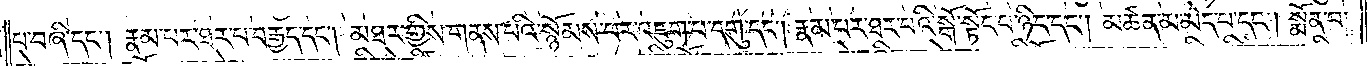པ་བཞི་དང༌། རྣམ་པར་ཐར་པ་བརྒྱད་དང༌། མཐར་གྱིས་གནས་པའི་སྙོམས་པར་འཇུག་པ་དགུ་དང༌། རྣམ་པར་ཐར་པའི་སྒོ་སྟོང་པ་ཉིད་དང༌། མཚན་མ་མེད་པ་དང༌། སྨོན་པ་
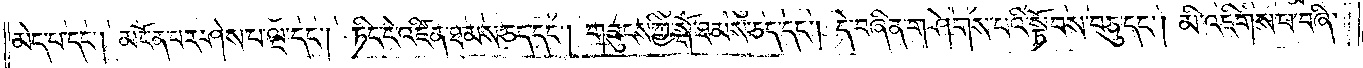མེད་པ་དང༌། མངོན་པར་ཤེས་པ་ལྔ་དང༌། ཏིང་ངེ་འཛིན་ཐམས་ཅད་དང༌། གཟུངས་ཀྱི་སྒོ་ཐམས་ཅད་དང༌། དེ་བཞིན་གཤེགས་པའི་སྟོབས་བཅུ་དང༌། མི་འཇིགས་པ་བཞི་
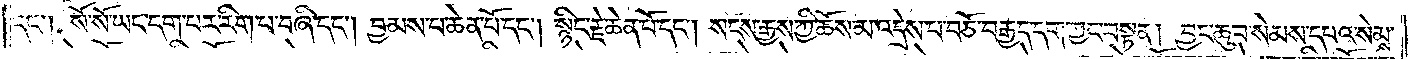དང༌། སོ་སོ་ཡང་དག་པར་རིག་པ་བཞི་དང༌། བྱམས་པ་ཆེན་པོ་དང༌། སྙིང་རྗེ་ཆེན་པོ་དང༌། སངས་རྒྱས་ཀྱི་ཆོས་མ་འདྲེས་པ་བཅོ་བརྒྱད་དག་ཀྱང་བསྟན། བྱང་ཆུབ་སེམས་དཔའ་སེམས་
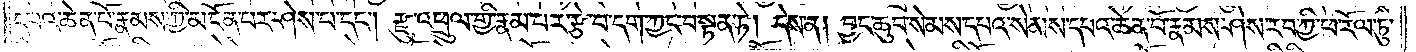དཔའ་ཆེན་པོ་རྣམས་ཀྱི་མངོན་པར་ཤེས་པ་དང༌། རྫུ་འཕྲུལ་གྱི་རྣམ་པར་རྩེ་བ་དག་ཀྱང་བསྟན་ཏེ། དེས་ན། བྱང་ཆུབ་སེམས་དཔའ་སེམས་དཔའ་ཆེན་པོ་རྣམས་ཤེས་རབ་ཀྱི་ཕ་རོལ་ཏུ་
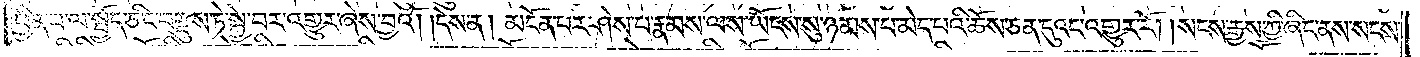ཕྱིན་པ་ལ་སྤྱོད་ཅིང་བརྫུས་ཏེ་སྐྱེ་བར་འགྱུར་ཞེས་བྱའོ། །དེས་ན། མངོན་པར་ཤེས་པ་རྣམས་ལས་ཡོངས་སུ་ཉམས་པ་མེད་པའི་ཆོས་ཅན་དུའང་འགྱུར་རོ། །སངས་རྒྱས་ཀྱི་ཞིང་ནས་སངས་
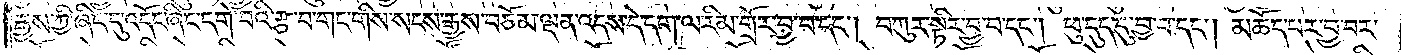རྒྱས་ཀྱི་ཞིང་དུ་འདོད་ཞིང་དགེ་བའི་རྩ་བ་གང་གིས་སངས་རྒྱས་བཅོམ་ལྡན་འདས་དེ་དག་ལ་རིམ་གྲོར་བྱ་བ་དང༌། བཀུར་སྟིར་བྱ་བ་དང༌། ཕུ་དུད་དུ་བྱ་བ་དང༌། མཆོད་པར་བྱ་བར་
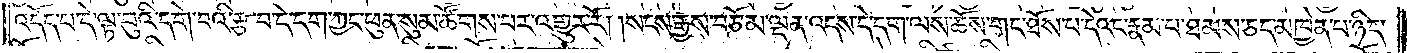འདོད་པ་དེ་ལྟ་བུའི་དགེ་བའི་རྩ་བ་དེ་དག་ཀྱང་ཕུན་སུམ་ཚོགས་པར་འགྱུར་རོ། །སངས་རྒྱས་བཅོམ་ལྡན་འདས་དེ་དག་ལས་ཆོས་གང་ཐོས་པ་དེའང་རྣམ་པ་ཐམས་ཅད་མཁྱེན་པ་ཉིད་
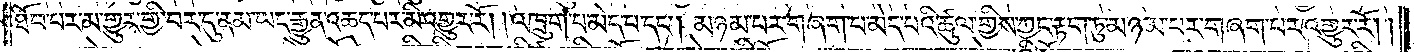ཐོབ་པར་མ་གྱུར་གྱི་བར་དུ་ནམ་ཡང་རྒྱུན་ཆད་པར་མི་འགྱུར་རོ། །འཁྲུག་པ་མེད་པ་དང༌། མཉམ་པར་བཞག་པ་མེད་པའི་ཚུལ་གྱིས་ཀྱང་རྟག་ཏུ་མཉམ་པར་གཞག་པར་འགྱུར་རོ། །
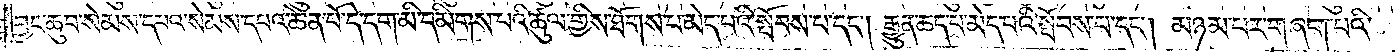བྱང་ཆུབ་སེམས་དཔའ་སེམས་དཔའ་ཆེན་པོ་དེ་དག་མི་དམིགས་པའི་ཚུལ་གྱིས་ཐོགས་པ་མེད་པའི་སྤོབས་པ་དང༌། རྒྱུན་ཆད་པ་མེད་པའི་སྤོབས་པ་དང༌། མཉམ་པར་གཞག་པའི་
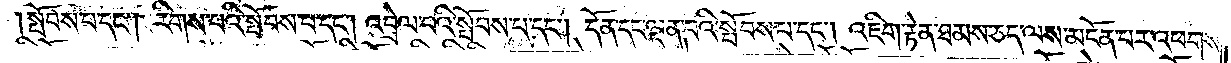སྤོབས་པ་དང༌། རིགས་པའི་སྤོབས་པ་དང༌། འབྲེལ་པའི་སྤོབས་པ་དང༌། དོན་དང་ལྡན་པའི་སྤོབས་པ་དང༌། འཇིག་རྟེན་ཐམས་ཅད་ལས་མངོན་པར་འཕགས་
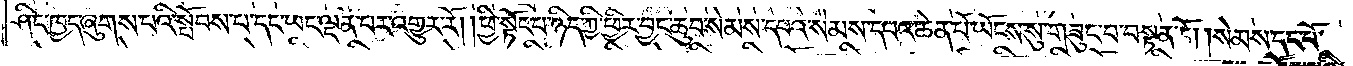ཤིང༌ཁྱད་ཞུགས་པའི་སྤོབས་པ་དང་ཡང་ལྡན་པར་འགྱུར་རོ། །ཕྱི་སྟོང་པ་ཉིད་ཀྱི་ཕྱིར་བྱང་ཆུབ་སེམས་དཔའ་སེམས་དཔའ་ཆེན་པོ་ཡོངས་སུ་བཟུང་བ་བསྟན་ཏོ། །སེམས་དང་པོ་
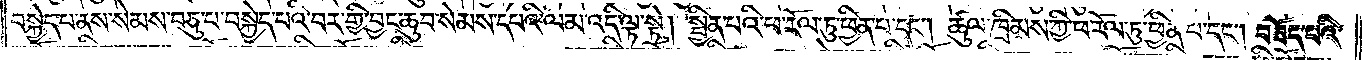བསྐྱེད་པ་ནས་སེམས་བཅུ་པ་བསྐྱེད་པའི་བར་གྱི་བྱང་ཆུབ་སེམས་དཔའི་ལམ་འདི་ལྟ་སྟེ། སྦྱིན་པའི་ཕ་རོལ་ཏུ་ཕྱིན་པ་དང༌། ཚུལ་ཁྲིམས་ཀྱི་ཕ་རོལ་ཏུ་ཕྱིན་པ་དང༌། བཟོད་པའི་
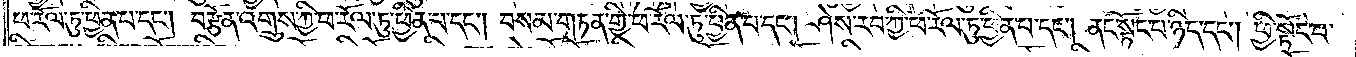ཕ་རོལ་ཏུ་ཕྱིན་པ་དང༌། བརྩོན་འགྲུས་ཀྱི་ཕ་རོལ་ཏུ་ཕྱིན་པ་དང༌། བསམ་གཏན་གྱི་ཕ་རོལ་ཏུ་ཕྱིན་པ་དང༌། ཤེས་རབ་ཀྱི་ཕ་རོལ་ཏུ་ཕྱིན་པ་དང༌། ནང་སྟོང་པ་ཉིད་དང༌། ཕྱི་སྟོང་པ་
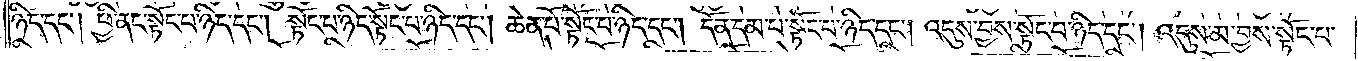ཉིད་དང༌། ཕྱི་ནང་སྟོང་པ་ཉིད་དང༌། སྟོང་པ་ཉིད་སྟོང་པ་ཉིད་དང༌། ཆེན་པོ་སྟོང་པ་ཉིད་དང༌། དོན་དམ་པ་སྟོང་པ་ཉིད་དང༌། འདུས་བྱས་སྟོང་པ་ཉིད་དང༌། འདུས་མ་བྱས་སྟོང་པ་
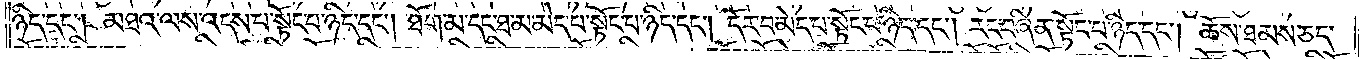ཉིད་དང༌། མཐའ་ལས་འདས་པ་སྟོང་པ་ཉིད་དང༌། ཐོག་མ་དང་ཐ་མ་མེད་པ་སྟོང་པ་ཉིད་དང༌། དོར་བ་མེད་པ་སྟོང་པ་ཉིད་དང༌། རང་བཞིན་སྟོང་པ་ཉིད་དང༌། ཆོས་ཐམས་ཅད་
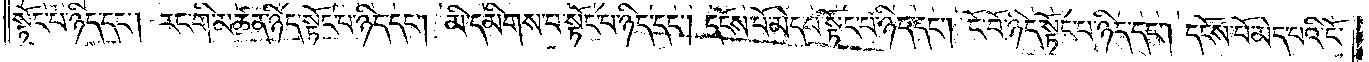སྟོང་པ་ཉིད་དང༌། རང་གི་མཚན་ཉིད་སྟོང་པ་ཉིད་དང༌། མི་དམིགས་པ་སྟོང་པ་ཉིད་དང༌། དངོས་པོ་མེད་པ་སྟོང་པ་ཉིད་དང༌། ངོ་བོ་ཉིད་སྟོང་པ་ཉིད་དང༌། དངོས་པོ་མེད་པའི་ངོ་
